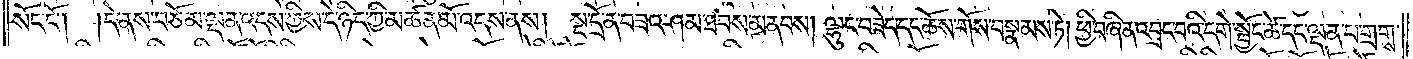སོང་ངོ༌། །དེ་ནས་བཅོམ་ལྡན་འདས་ཀྱིས་དེ་ཉིད་ཀྱི་མཚན་མོ་འདས་ནས། སྔ་དྲོ་ན་བཟའ་ཤམ་ཐབས་མནབས། ལྷུང་བཟེད་དང་ཆོས་གོས་བསྣམས་ཏེ། ཕྱི་བཞིན་འབྲང་བའི་དགེ་སྦྱོང་ཚེ་དང་ལྡན་པ་གྲགས་
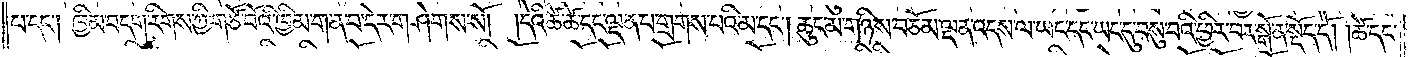པ་དང༌། ཁྱིམ་བདག་རིགས་ཀྱི་གཙོ་བོའི་ཁྱིམ་ག་ན་བ་དེར་གཤེགས་སོ། །དེའི་ཚེ་ཚེ་དང་ལྡན་པ་གྲགས་པའི་མ་དང༌། ཆུང་མ་གཉིས་བཅོམ་ལྡན་འདས་ལ་ཡང་དང་ཡང་དུ་བསུ་བའི་ཕྱིར་བར་སྒོ་ན་སྡོད་དོ། །ཚེ་དང་
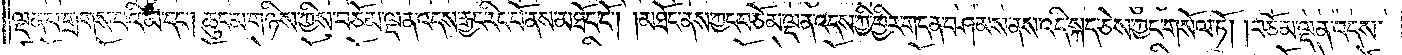ལྡན་པ་གྲགས་པའི་མ་དང༌། ཆུང་མ་གཉིས་ཀྱིས་བཅོམ་ལྡན་འདས་རྒྱང་རིང་པོ་ནས་མཐོང་ངོ༌། །མཐོང་ནས་ཀྱང་བཅོམ་ལྡན་འདས་ཀྱི་ཕྱིར་གདན་བཤམས་ནས་འདི་སྐད་ཅེས་ཀྱང་གསོལ་ཏོ། །བཅོམ་ལྡན་འདས་
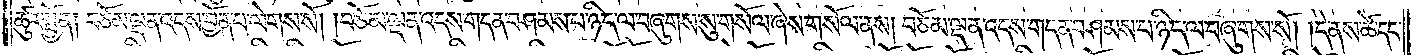ཚུར་སྤྱོན། བཅོམ་ལྡན་འདས་བྱོན་པ་ལེགས་སོ། །བཅོམ་ལྡན་འདས་གདན་བཤམས་པ་ཉིད་ལ་བཞུགས་སུ་གསོལ་ཞེས་གསོལ་ནས། བཅོམ་ལྡན་འདས་གདན་བཤམས་པ་ཉིད་ལ་བཞུགས་སོ། །དེ་ནས་ཚེ་དང་
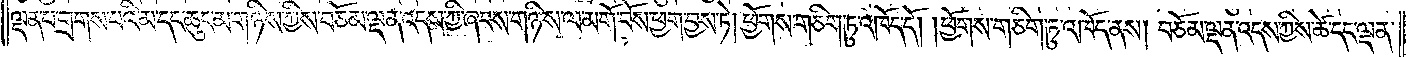ལྡན་པ་གྲགས་པའི་མ་དང་ཆུང་མ་གཉིས་ཀྱིས་བཅོམ་ལྡན་འདས་ཀྱི་ཞབས་གཉིས་ལ་མགོ་བོས་ཕྱག་བྱས་ཏེ། ཕྱོགས་གཅིག་ཏུ་འཁོད་དོ། །ཕྱོགས་གཅིག་ཏུ་འཁོད་ནས། བཅོམ་ལྡན་འདས་ཀྱིས་ཚེ་དང་ལྡན་
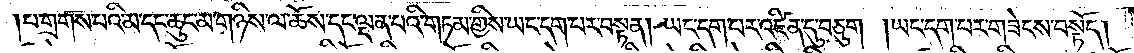།པ་གྲགས་པའི་མ་དང་ཆུང་མ་གཉིས་ལ་ཆོས་དང་ལྡན་པའི་གཏམ་གྱིས་ཡང་དག་པར་བསྟན། ཡང་དག་པར་འཛིན་དུ་བཅུག །ཡང་དག་པར་གཟེངས་བསྟོད།
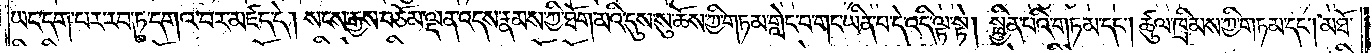ཡང་དག་པར་རབ་ཏུ་དགའ་བར་མཛད་དེ། སངས་རྒྱས་བཅོམ་ལྡན་འདས་རྣམས་ཀྱི་ཐོག་མའི་དུས་སུ་ཆོས་ཀྱི་གཏམ་གླེང་བ་གང་ཡིན་པ་དེ་འདི་ལྟ་སྟེ། སྦྱིན་པའི་གཏམ་དང༌། ཚུལ་ཁྲིམས་ཀྱི་གཏམ་དང༌། མཐོ་
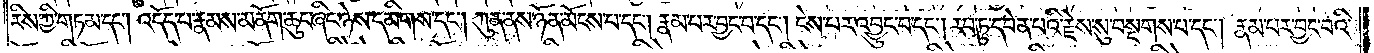རིས་ཀྱི་གཏམ་དང༌། འདོད་པ་རྣམས་མནོག་ཆུང་ཞིང་ཉེས་དམིགས་དང༌། ཀུན་ནས་ཉོན་མོངས་པ་དང༌། རྣམ་པར་བྱང་བ་དང༌། ངེས་པར་འབྱུང་བ་དང༌། རབ་ཏུ་དབེན་པའི་རྗེས་སུ་བསྔགས་པ་དང༌། རྣམ་པར་བྱང་བའི་
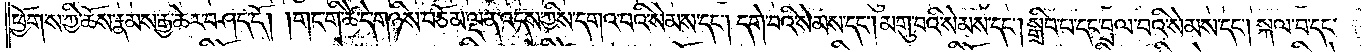ཕྱོགས་ཀྱི་ཆོས་རྣམས་རྒྱ་ཆེར་བཤད་དོ། །གང་གི་ཚེ་དེ་གཉིས་བཅོམ་ལྡན་འདས་ཀྱིས་དགའ་བའི་སེམས་དང༌། དགེ་བའི་སེམས་དང༌། མགུ་བའི་སེམས་དང༌། སྒྲིབ་པ་དང་བྲལ་བའི་སེམས་དང༌། སྐལ་བ་དང་
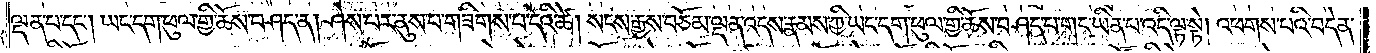ལྡན་པ་དང༌། ཡང་དག་ཕུལ་གྱི་ཆོས་བཤད་ན། ཤེས་པར་ནུས་པ་གཟིགས་པ་དེའི་ཚེ། སངས་རྒྱས་བཅོམ་ལྡན་འདས་རྣམས་ཀྱི་ཡང་དག་ཕུལ་གྱི་ཆོས་བཤད་པ་གང་ཡིན་པ་འདི་ལྟ་སྟེ། འཕགས་པའི་བདེན་
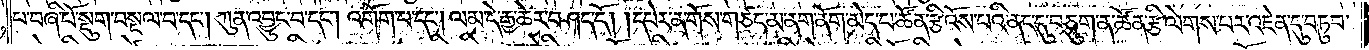པ་བཞི་པོ་སྡུག་བསྔལ་དང༌། ཀུན་འབྱུང་བ་དང༌། འགོག་པ་དང༌། ལམ་དེ་རྒྱ་ཆེར་བཤད་དོ། །དཔེར་ན་གོས་གཙང་མ་ནག་ནོག་མེད་པ་ཚོན་རྩི་འོས་པའི་ནང་དུ་བཅུག་ན་ཚོན་རྩི་ལེགས་པར་འཇེན་དུ་བཏུབ་
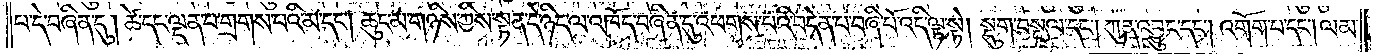པ་དེ་བཞིན་དུ། ཚེ་དང་ལྡན་པ་གྲགས་པའི་མ་དང༌། ཆུང་མ་གཉིས་ཀྱིས་སྟན་དེ་ཉིད་ལ་འཁོད་བཞིན་དུ་འཕགས་པའི་བདེན་པ་བཞི་པོ་འདི་ལྟ་སྟེ། སྡུག་བསྔལ་དང༌། ཀུན་འབྱུང་དང༌། འགོག་པ་དང༌། ལམ་
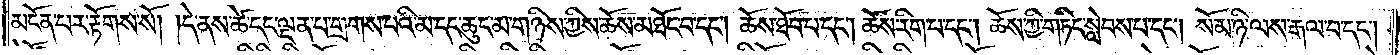མངོན་པར་རྟོགས་སོ། །དེ་ནས་ཚེ་དང་ལྡན་པ་གྲགས་པའི་མ་དང་ཆུང་མ་གཉིས་ཀྱིས་ཆོས་མཐོང་བ་དང༌། ཆོས་ཐོབ་པ་དང༌། ཆོས་རིག་པ་དང༌། ཆོས་ཀྱི་གཏིང་སླེབས་པ་དང༌། སོམ་ཉི་ལས་རྒལ་བ་དང༌།
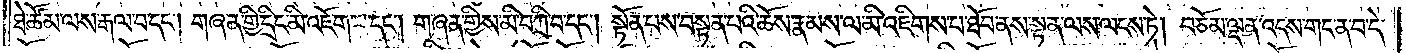ཐེ་ཚོམ་ལས་རྒལ་བ་དང༌། གཞན་གྱི་དྲིང་མི་འཇོག་པ་དང༌། གཞན་གྱིས་མི་བཀྲི་བ་དང༌། སྟོན་པས་བསྟན་པའི་ཆོས་རྣམས་ལ་མི་འཇིགས་པ་ཐོབ་ནས་སྟན་ལས་ལངས་ཏེ། བཅོམ་ལྡན་འདས་གང་ན་བ་དེ་
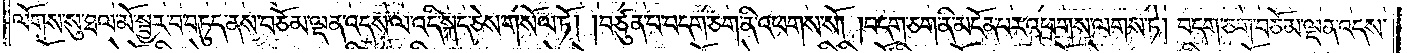ལོགས་སུ་ཐལ་མོ་སྦྱར་བ་བཏུད་ནས་བཅོམ་ལྡན་འདས་ལ་འདི་སྐད་ཅེས་གསོལ་ཏོ། །བཙུན་པ་བདག་ཅག་ནི་འཕགས་སོ། །བདག་ཅག་ནི་མངོན་པར་འཕགས་ལགས་ཏེ། བདག་ཅག་བཅོམ་ལྡན་འདས་
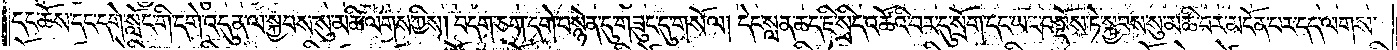དང་ཆོས་དང་དགེ་སློང་གི་དགེ་འདུན་ལ་སྐྱབས་སུ་མཆི་ལགས་ཀྱིས། བདག་ཅག་དགེ་བསྙེན་དུ་གཟུང་དུ་གསོལ། དེང་སླན་ཆད་ཇི་སྲིད་འཚོའི་བར་དུ་སྲོག་དང་ཡང་བསྡོས་ཏེ་སྐྱབས་སུ་མཆི་བར་མངོན་པར་དད་ལགས་
